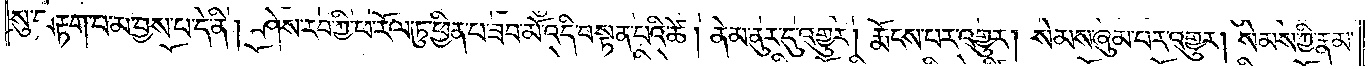སུ་བརྟག་པ་མི་བྱས་པ་དེ་ནི། ཤེས་རབ་ཀྱི་ཕ་རོལ་ཏུ་ཕྱིན་པ་ཟབ་མོ་འདི་བསྟན་པའི་ཚེ། ནེམ་ནུར་དུ་འགྱུར། རྨོངས་པར་འགྱུར། སེམས་ཞུམ་པར་འགྱུར། སེམས་ཀྱི་རྣམ་
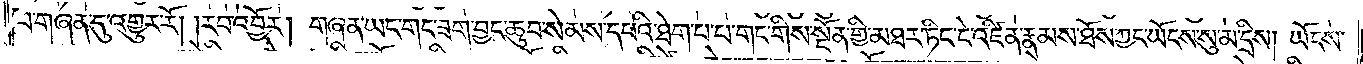པ་གཞན་དུ་འགྱུར་རོ། །རབ་འབྱོར། གཞན་ཡང་གང་ཟག་བྱང་ཆུབ་སེམས་དཔའི་ཐེག་པ་པ་གང་གིས་སྔོན་གྱི་མཐར་ཏིང་ངེ་འཛིན་རྣམས་ཐོས་ཀྱང་ཡོངས་སུ་མ་དྲིས། ཡོངས་
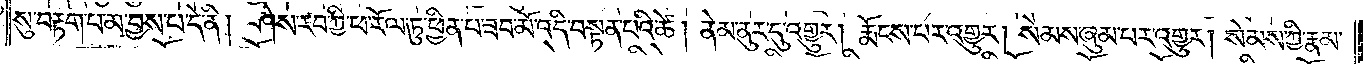སུ་བརྟག་པ་མ་བྱས་པ་དེ་ནི། ཤེས་རབ་ཀྱི་ཕ་རོལ་ཏུ་ཕྱིན་པ་ཟབ་མོ་འདི་བསྟན་པའི་ཚེ། ནེམ་ནུར་དུ་འགྱུར། རྨོངས་པར་འགྱུར། སེམས་ཞུམ་པར་འགྱུར། སེམས་ཀྱི་རྣམ་
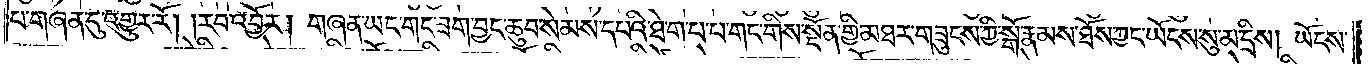པ་གཞན་དུ་འགྱུར་རོ། །རབ་འབྱོར། གཞན་ཡང་གང་ཟག་བྱང་ཆུབ་སེམས་དཔའི་ཐེག་པ་པ་གང་གིས་སྔོན་གྱི་མཐར་གཟུངས་ཀྱི་སྒོ་རྣམས་ཐོས་ཀྱང་ཡོངས་སུ་མ་དྲིས། ཡོངས་
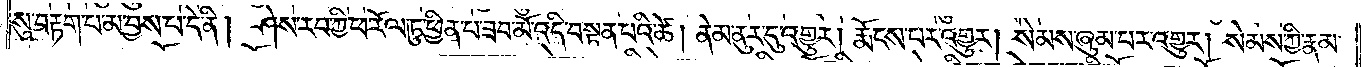སུ་བརྟག་པ་མ་བྱས་པ་དེ་ནི། ཤེས་རབ་ཀྱི་ཕ་རོལ་ཏུ་ཕྱིན་པ་ཟབ་མོ་འདི་བསྟན་པའི་ཚེ། ནེམ་ནུར་དུ་འགྱུར། རྨོངས་པར་འགྱུར། སེམས་ཞུམ་པར་འགྱུར། སེམས་ཀྱི་རྣམ་
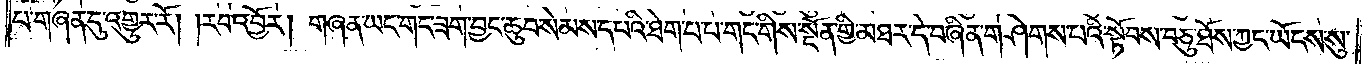པ་གཞན་དུ་འགྱུར་རོ། །རབ་འབྱོར། གཞན་ཡང་གང་ཟག་བྱང་ཆུབ་སེམས་དཔའི་ཐེག་པ་པ་གང་གིས་སྔོན་གྱི་མཐར་དེ་བཞིན་གཤེགས་པའི་སྟོབས་བཅུ་ཐོས་ཀྱང་ཡོངས་སུ་
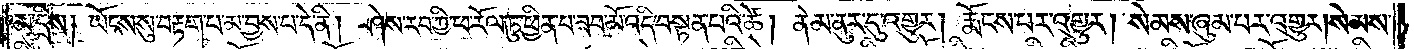མ་དྲིས། ཡོངས་སུ་བརྟག་པ་མ་བྱས་པ་དེ་ནི། ཤེས་རབ་ཀྱི་ཕ་རོལ་ཏུ་ཕྱིན་པ་ཟབ་མོ་འདི་བསྟན་པའི་ཚེ། ནེམ་ནུར་དུ་འགྱུར། རྨོངས་པར་འགྱུར། སེམས་ཞུམ་པར་འགྱུར། སེམས་
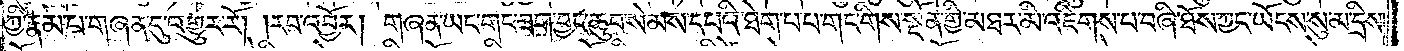ཀྱི་རྣམ་པ་གཞན་དུ་འགྱུར་རོ། །རབ་འབྱོར། གཞན་ཡང་གང་ཟག་བྱང་ཆུབ་སེམས་དཔའི་ཐེག་པ་པ་གང་གིས་སྔོན་གྱི་མཐར་མི་འཇིགས་པ་བཞི་ཐོས་ཀྱང་ཡོངས་སུ་མ་དྲིས།
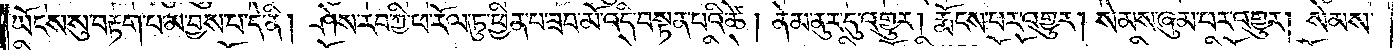ཡོངས་སུ་བརྟག་པ་མ་བྱས་པ་དེ་ནི། ཤེས་རབ་ཀྱི་ཕ་རོལ་ཏུ་ཕྱིན་པ་ཟབ་མོ་འདི་བསྟན་པའི་ཚེ། ནེམ་ནུར་དུ་འགྱུར། རྨོངས་པར་འགྱུར། སེམས་ཞུམ་པར་འགྱུར། སེམས་
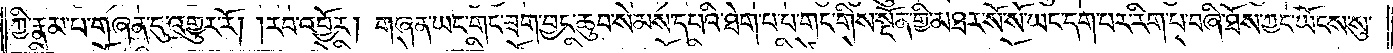ཀྱི་རྣམ་པ་གཞན་དུ་འགྱུར་རོ། །རབ་འབྱོར། གཞན་ཡང་གང་ཟག་བྱང་ཆུབ་སེམས་དཔའི་ཐེག་པ་པ་གང་གིས་སྔོན་གྱི་མཐར་སོ་སོ་ཡང་དག་པར་རིག་པ་བཞི་ཐོས་ཀྱང་ཡོངས་སུ་
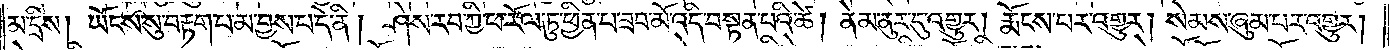མ་དྲིས། ཡོངས་སུ་བརྟག་པ་མ་བྱས་པ་དེ་ནི། ཤེས་རབ་ཀྱི་ཕ་རོལ་ཏུ་ཕྱིན་པ་ཟབ་མོ་འདི་བསྟན་པའི་ཚེ། ནེམ་ནུར་དུ་འགྱུར། རྨོངས་པར་འགྱུར། སེམས་ཞུམ་པར་འགྱུར།
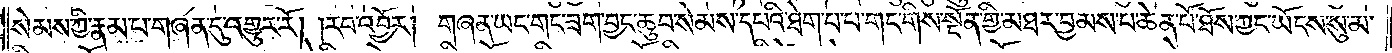སེམས་ཀྱི་རྣམ་པ་གཞན་དུ་འགྱུར་རོ། །རབ་འབྱོར། གཞན་ཡང་གང་ཟག་བྱང་ཆུབ་སེམས་དཔའི་ཐེག་པ་པ་གང་གིས་སྔོན་གྱི་མཐར་བྱམས་པ་ཆེན་པོ་ཐོས་ཀྱང་ཡོངས་སུ་མ་
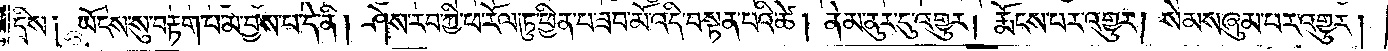དྲིས༑ ཡོངས་སུ་བརྟག་པ་མ་བྱས་པ་དེ་ནི། ཤེས་རབ་ཀྱི་ཕ་རོལ་ཏུ་ཕྱིན་པ་ཟབ་མོ་འདི་བསྟན་པའི་ཚེ། ནེམ་ནུར་དུ་འགྱུར། རྨོངས་པར་འགྱུར། སེམས་ཞུམ་པར་འགྱུར།
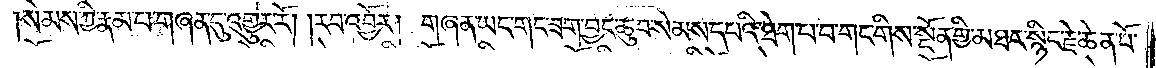སེམས་ཀྱི་རྣམ་པ་གཞན་དུ་འགྱུར་རོ། །རབ་འབྱོར། གཞན་ཡང་གང་ཟག་བྱང་ཆུབ་སེམས་དཔའ་ཐེག་པ་པ་གང་གིས་སྔོན་གྱི་མཐར་སྙིང་རྗེ་ཆེན་པོ་
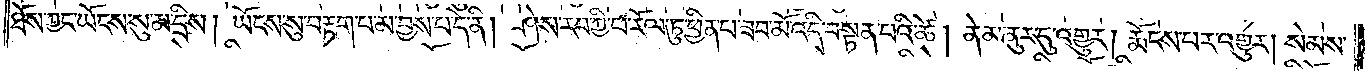ཐོས་ཀྱང་ཡོངས་སུ་མ་དྲིས། ཡོངས་སུ་བརྟག་པ་མ་བྱས་པ་དེ་ནི། ཤེས་རབ་ཀྱི་ཕ་རོལ་ཏུ་ཕྱིན་པ་ཟབ་མོ་འདི་བསྟན་པའི་ཚེ། ནེམ་ནུར་དུ་འགྱུར། རྨོངས་པར་འགྱུར། སེམས་
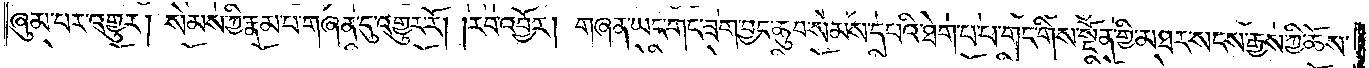ཞུམ་པར་འགྱུར། སེམས་ཀྱི་རྣམ་པ་གཞན་དུ་འགྱུར་རོ། །རབ་འབྱོར། གཞན་ཡང་གང་ཟག་བྱང་ཆུབ་སེམས་དཔའི་ཐེག་པ་པ་གང་གིས་སྔོན་གྱི་མཐར་སངས་རྒྱས་ཀྱི་ཆོས་
